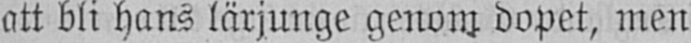att bli hans lärjunge genom dopet, men
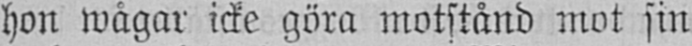hon wågar icke göra motstånd mot sin
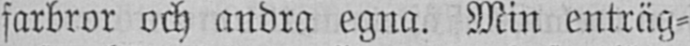farbror och andra egna. Min enträg-
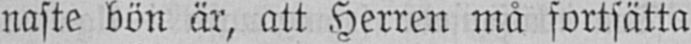naste bön är, att Herren må fortsätta
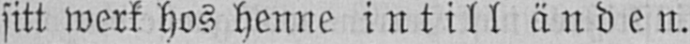sitt werk hos henne intill änden.
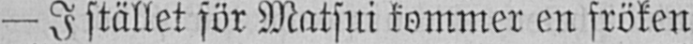— I stället för Matsui kommer en fröken
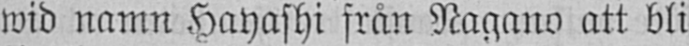wid namn Hayashi från Nagano att bli
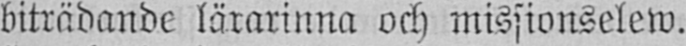biträdande lärarinna och missionselew.
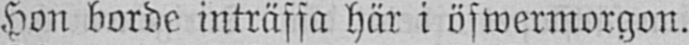Hon borde inträffa här i öfwermorgon.
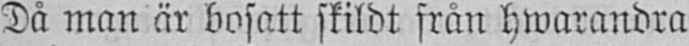Då man är bosatt skildt från hwarandra
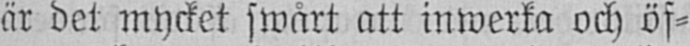är det mycket swårt att inwerka och öf-
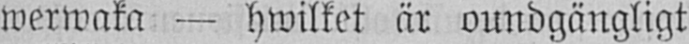werwaka — hwilket är oundgängligt
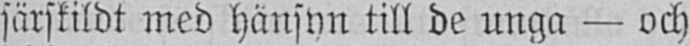särskildt med hänsyn till de unga — och
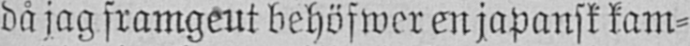då jag framgeut behöfwer en japansk kam-
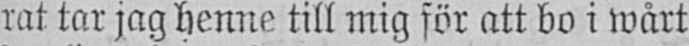rat tar jag henne till mig för att bo i wårt
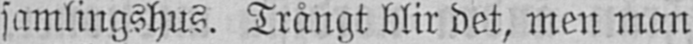samlingshus. Trångt blir det, men man
